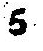5
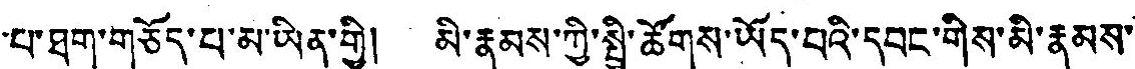པ་ཐག་གཅོད་པ་མ་ཡིན་གྱི། མི་རྣམས་ཀྱི་སྤྱི་ཚོགས་ཡོད་བའི་དབང་གིས་མི་རྣམས་
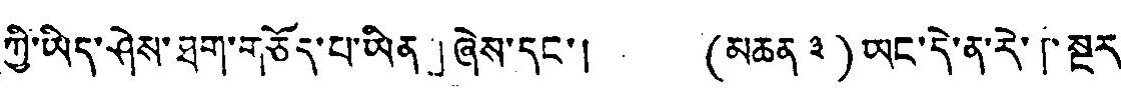ཀྱི་ཡིད་ཤེས་ཐག་གཅོད་པ་ཡིན」ཞེས་དང་། (མཆན ༣) ཡང་དེ་ན་རེ་「སྔར་
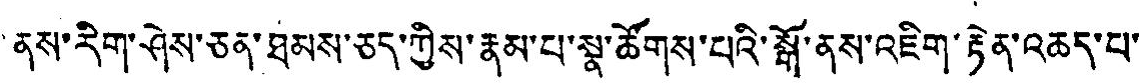ནས་རིག་ཤེས་ཅན་ཐམས་ཅད་ཀྱིས་རྣམ་པ་སྣ་ཚོགས་པའི་སྒོ་ནས་འཇིག་རྟེན་འཆད་པ་
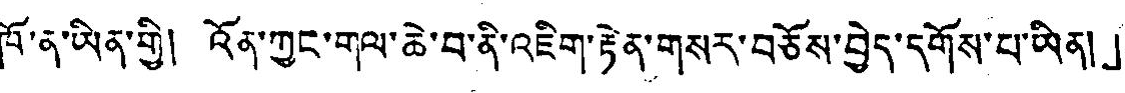ཁོ་ན་ཡིན་གྱི། འོན་ཀྱང་གལ་ཆེ་བ་ནི་འཇིག་རྟེན་གསར་བཅོས་བྱེད་དགོས་པ་ཡིན།」
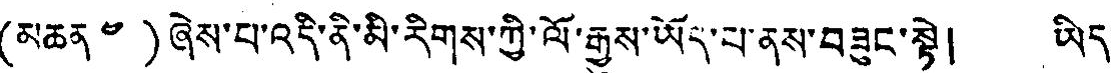(མཆན ༤)ཞེས་པ་འདི་ནི་མི་རིགས་ཀྱི་ལོ་རྒྱུས་ཡོད་པ་ནས་བཟུང་སྟེ། ཡིད་
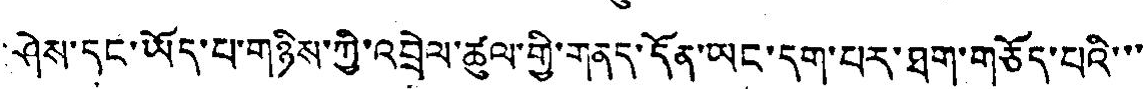ཤེས་དང་ཡོད་པ་གཉིས་ཀྱི་འབྲེལ་ཚུལ་གྱི་གནད་དོན་ཡང་དག་པར་ཐག་གཅོད་པའི་་་
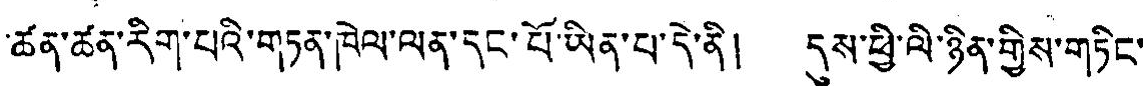ཚན་ཚན་རིག་པའི་གཏན་ཁེལ་ལན་དང་པོ་ཡིན་པ་དེ་ནི། དུས་ཕྱི་ལི་ཉིན་གྱིས་གཏིང་
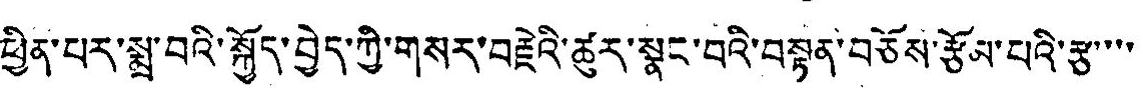ཕྱིན་པར་སྨྲ་བའི་སྐྱོད་བྱེད་ཀྱི་གསར་བརྗེའི་ཚུར་སྣང་བའི་བསྟན་བཅོས་རྩོམ་པའི་རྩ་་་་
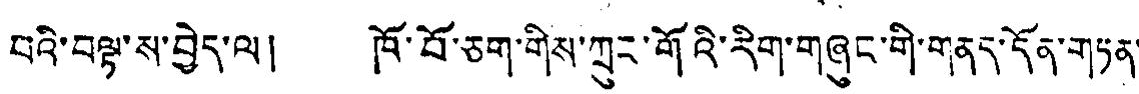བའི་བལྟ་ས་བྱེད་ལ། ཁོ་བོ་ཅག་གིས་ཀྲུང་གོའི་རིག་གཞུང་གི་གནད་དོན་གཏན་
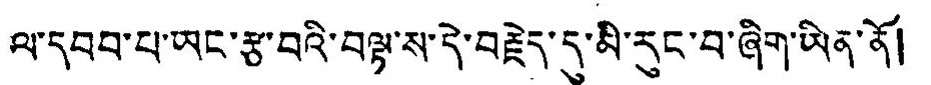ལ་དབབ་པ་ཡང་རྩ་བའི་བལྟ་ས་དེ་བརྗེད་དུ་མི་རུང་བ་ཞིག་ཡིན་ནོ།
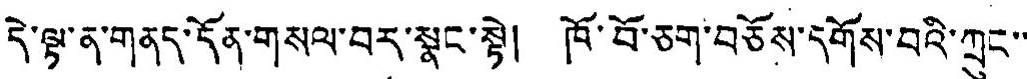དེ་ལྟ་ན་གནད་དོན་གསལ་བར་སྣང་སྟེ། ཁོ་བོ་ཅག་བཅོས་དགོས་བའི་ཀྲུང་་
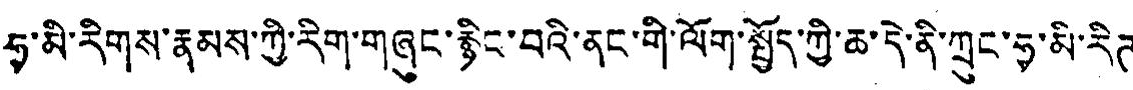ཧྭ་མི་རིགས་རྣམས་ཀྱི་རིག་གཞུང་རྙིང་བའི་ནང་གི་ལོག་སྤྱོད་ཀྱི་ཆ་དེ་ནི་ཀྲུང་ཧྭ་མི་རིཊ་
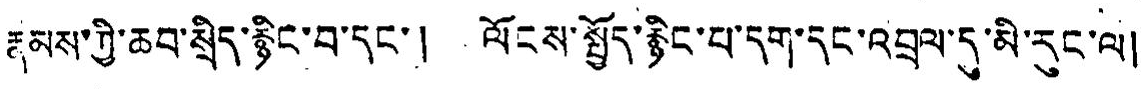རྣམས་ཀྱི་ཆབ་སྲིད་རྙིང་བ་དང་། ལོངས་སྤྱོད་རྙིང་པ་དག་དང་འབྲལ་དུ་མི་རུང་ལ།
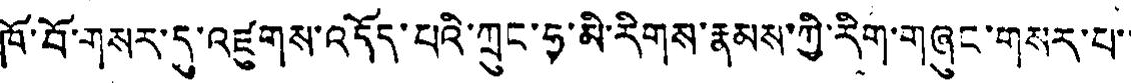ཁོ་བོ་གསར་དུ་འཛུགས་འདོད་པའི་ཀྲུང་ཧྭ་མི་རིགས་རྣམས་ཀྱི་རིག་གཞུང་གསར་པ་་
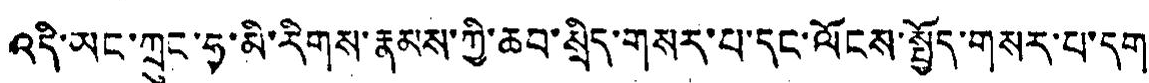འདི་ཡང་ཀྲུང་ཧྭ་མི་རིགས་རྣམས་ཀྱི་ཆབ་སྲིད་གསར་པ་དང་ལོངས་སྤྱོད་གསར་པ་དག
